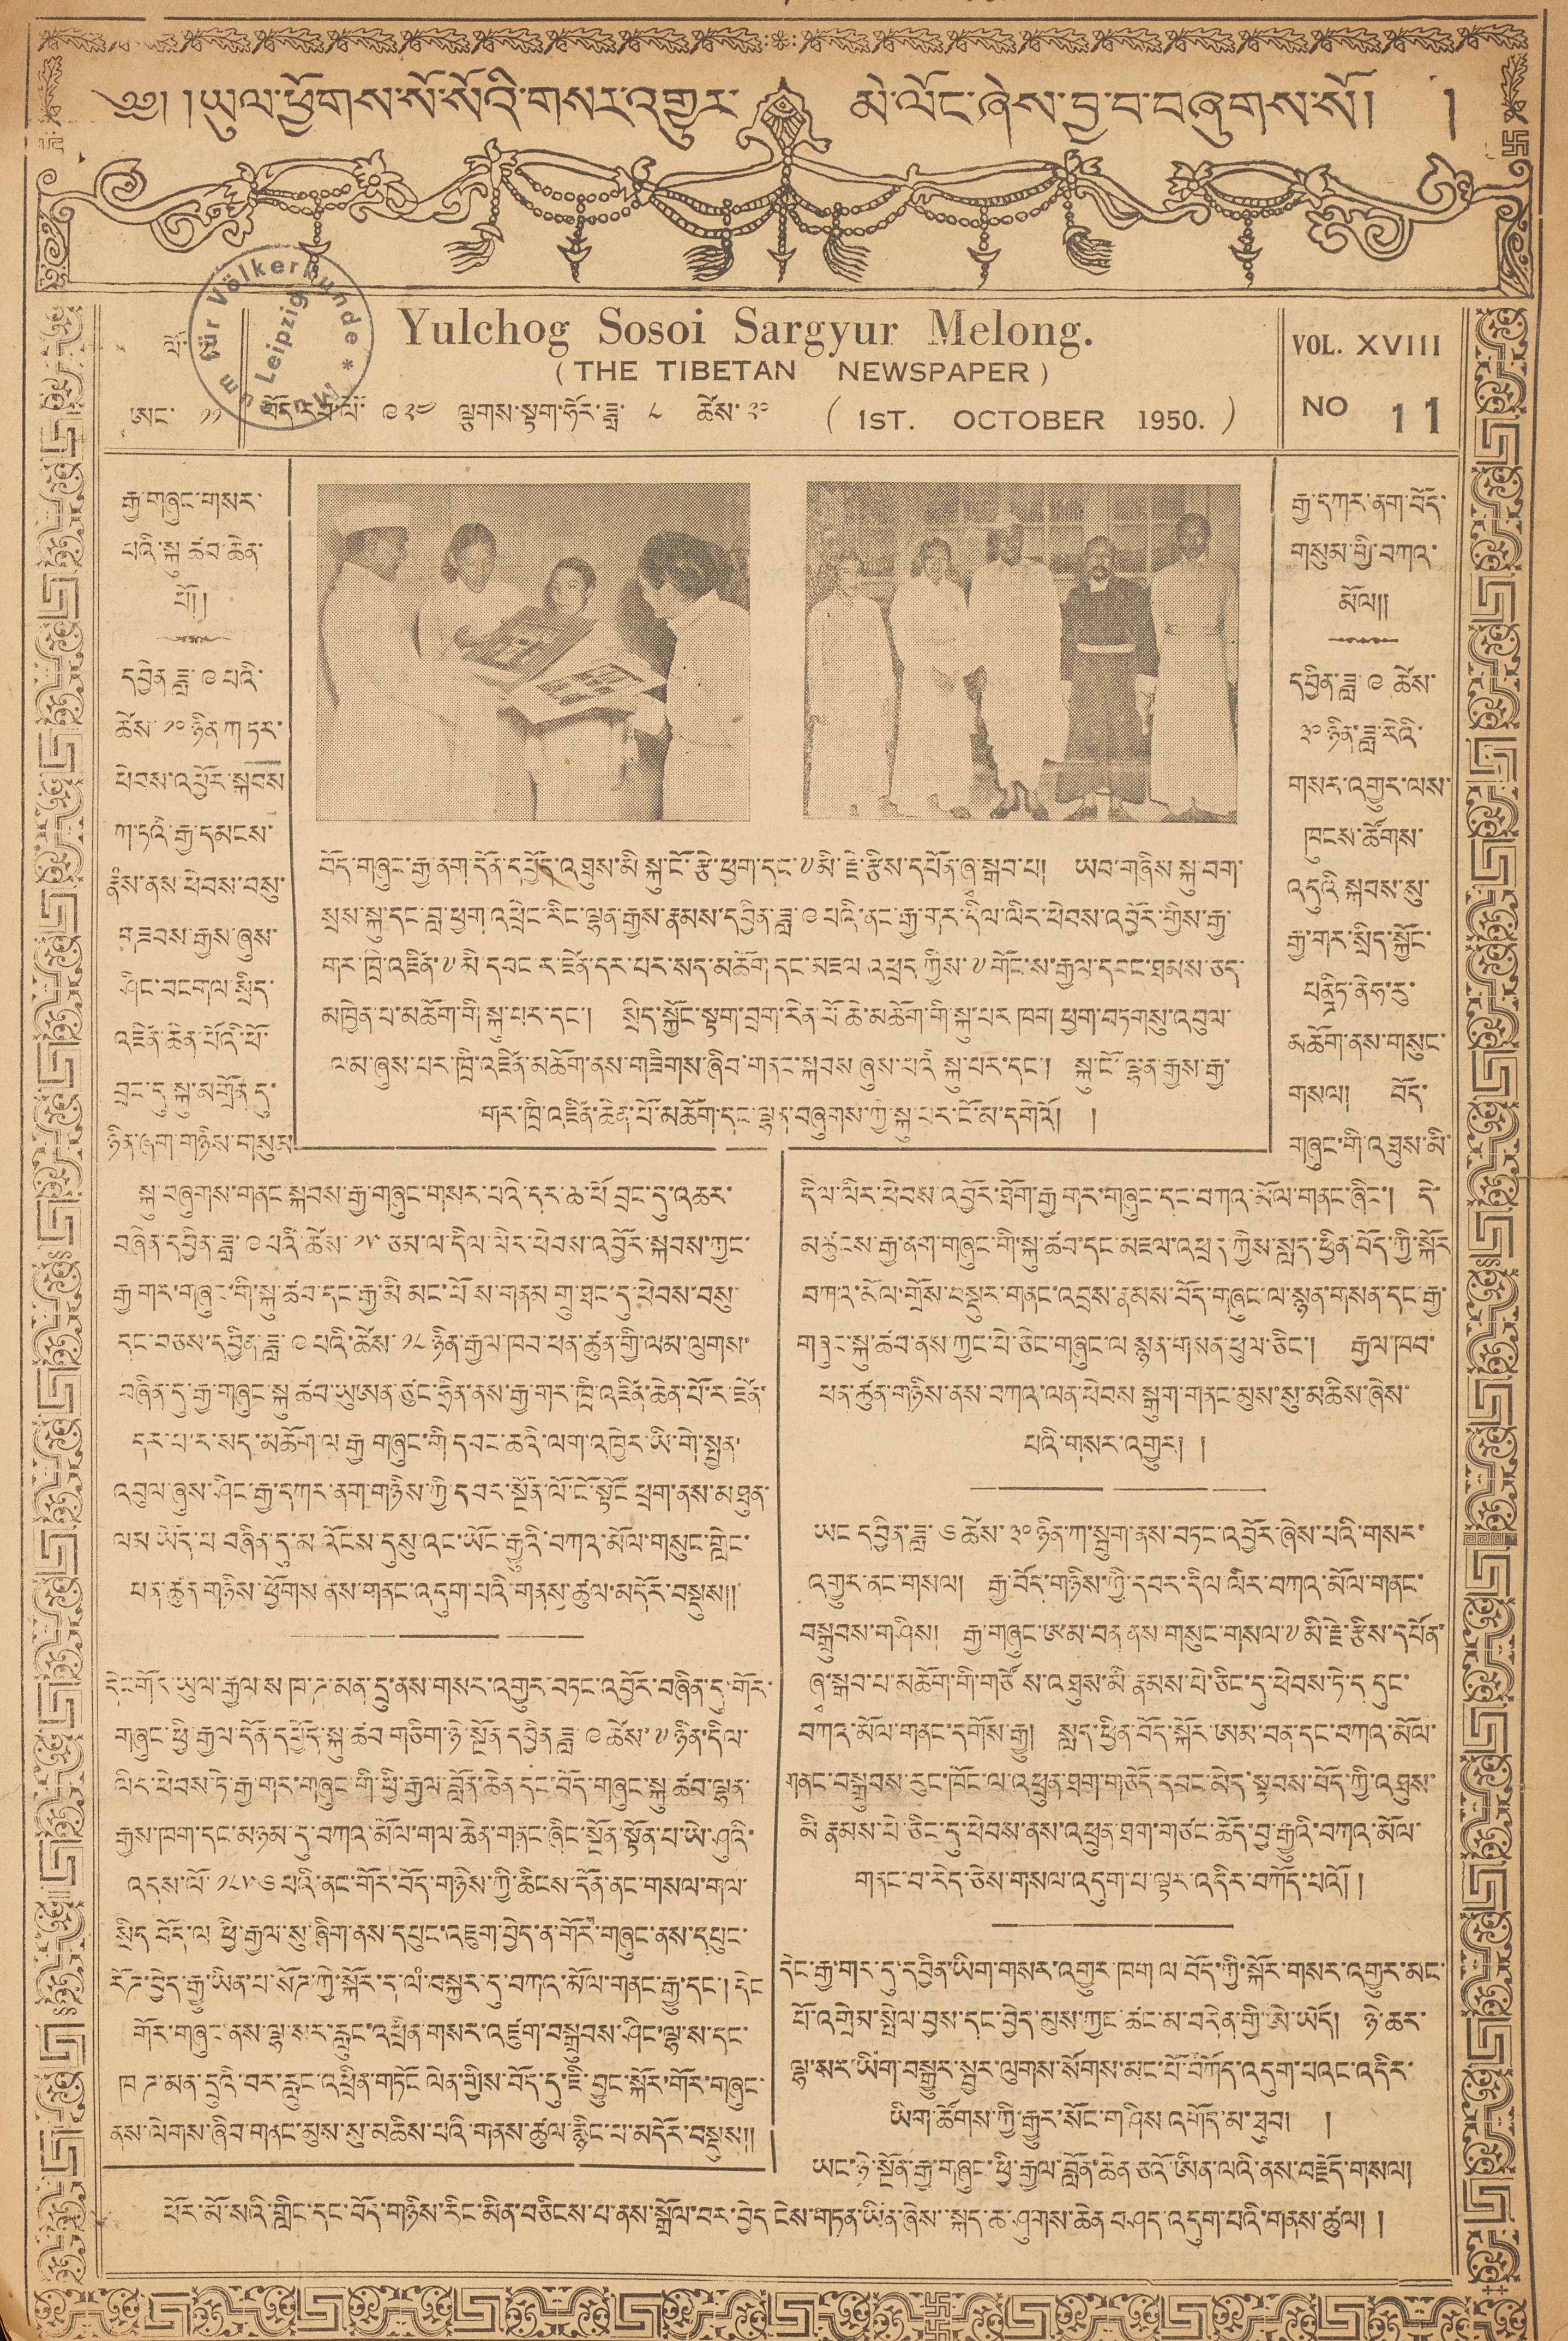༄༅། །ཡུལ་ཕྱོགས་སོ་སོའི་གསར་འགྱུར་ མེ་ལོང་ཞེས་བྱ་བ་བཞུགས་སོ། །
ལོ་ ༡༨
ཨང་ ༡༡
Yulchog Sosoi Sargyur Melong.
( THE TIBETAN NEWSPAPER )
བོད་རབ་ལོ་ ༩༢༤ ལྕགས་སྟག་ཧོར་ཟླ་ ༨ ཚེས་ ༢༠ ( 1st. OCTOBER 1950.)
VOL. XVIII
NO 11
བོད་གཞུང་རྒྱ་ནག་དོན་དཔྱོད་འཐུས་མི སྐུ་ངོ་རྩེ་ཕྱག་དང་༸མི་རྗེས་རྩིས་དཔོན་ཞྭ་སྒབ་པ། ཡབ་གཞིས་སྐུ་བག་
སྲས་སྐུ་དང་བླ་ཕྱག་འཕྲེང་རིང་ལྷན་རྒྱས་རྣམས་དབྱིན་ཟླ་ ༩ པའི་ནང་རྒྱ་གར་དིལ་ལིར་ཕེབས་འབྱོར་གྱིས་རྒྱ་
གར་ཁྲི་འཛིན་༸མི་དབང་ར་ཛེན་དར་པར་སད་མཆོག་དང་མཇལ་འཕྲད་ཀྱིས་༸གོང་ས་རྒྱལ་དབང་ཐམས་ཅད་
མཁྱེན་པ་མཆོག་གི་སྐུ་པར་དང་། སྲིད་སྐྱོང་སྟག་བྲག་རིན་པོ ཆེ་མཆོག་གི་སྐུ་པར་ཁག ཕྱག་བཏགསུ་འབུལ་
ལམ་ཞུས་པར་ཁྲི་འཛིན་མཆོག་ནས་གཟིགས་ཞིབ་གནང་སྐབས་ཞུས་པའི སྐུ་པར་དང་། སྐུ་ངོ་ལྷན་རྒྱས་རྒྱ་
གར་ཁྲི་འཛིན་ཆེན་པོ་མཆོག་དང་ལྷན་བཞུགས་ཀྱི་སྐུ་པར་ངོ་མ་དགེའོ། །
རྒྱ་གཞུང་གསར་
པའི་སྐུ ཚབ་ཆེན་
པོ། །
དབྱེན ཟླ་ ༩ པའི་
ཚེས་ ༡༠ ཉིན་ཀ ཏར་
ཕེབས་འབྱོར་སྐབས་
ཀ་ཏའི་རྒྱ་དམངས་
རྣཾས་ནས་ཕེབས་བསུ་
གཟབས་རྒྱས་ཞུས་
ཤིང་བངགལ་སྲིད་
འཛིན་ཆེན་པོའི་ཕོ་
བྲང་དུ་སྐུ་མགྲོན དུ་
ཉིན་ཞག་གཉིས་གསུམ
སྐུ་བཞུགས་གནང་སྐབས་རྒྱ་གཞུང་གསར་པའི་དར་ཆ་ཕོ བྲང་དུ་འཆར་
བཞིན་དབྱིན་ཟླ་ ༩ པའི་ཚེས་ ༡༥ ཙམ་ལ་དིལ་ལེར་ཕེབས་འབྱོར་སྐབས་ཀྱང་
རྒྱ་གར་གཞུང་གི་སྐུ་ཚབ་དང་རྒྱ་མི མང་པོས་གནམ གྲུ་ཐང་དུ་ཕེབས་བསུ་
དང་བཅས་དབྱིན་ཟླ་ ༩ ཚེས་ ༡༨ ཉིན་རྒྱལ་ཁབ་ཕན་ཚུན་གྱི་ལམ་ལུགས་
བཞིན་དུ་རྒྱ་གཞུང་སྐུ ཚབ་ཡུཨན་ཙུང་ཧྲིན་ནས་རྒྱ་གར་ཁྲི་འཛིན་ཆེན་པོ་ར་ཛེན་
དར་པ་ར་སད་མཆོག་ལ་རྒྱ གཞུང་གི་དབང་ཆའི་ལག་འཁྱེར་ཡི་གེ་སྤྱན་
འབུལ་ཞུས་ཤིང་རྒྱ་དཀར་ནག་གཉིས་ཀྱི་དབར་སྔོན་ལོ་ངོ་སྟོང་ཕྲག་ནས་མཐུན་
ལམ ཡོད་པ བཞིན་དུ་མ་འོངས་དུསུ་འང་ཡོང་རྒྱུའི་བཀའ་མོལ་གསུང་གླེང་
ཕན་ཚུན་གཉིས་ཕྱོགས ནས་གནང་འདུག་པའི་གནས་ཚུལ་མདོར་བསྡུས།།
དེང་གོར་ཡུལ་རྒྱལ་ས ཁ་ཌ་མན་དྲུ་ནས་གསར་འགྱུར་བཏང་འབྱོར་བཞིན་དུ་གོར་
གཞུང་ཕྱི རྒྱལ་དོན་དབྱོད་སྐུ་ཚབ་གཅིག་ཉེ་སྔོན་དབྱིན་ཟླ་ ༩ ཚེས་ ༧ ཉིན་དིལ་
ལིར་ཕེབས་ཏེ་རྒྱ་གར་གཞུང་གི་ཕྱི་རྒྱལ་བློན་ཆེན དང་བོད་གཞུང་སྐུ ཚབ་ལྷན་
རྒྱས་ཁག་དང་མཉམ་དུ་བཀའ་མོལ་གལ་ཆེན་གནང་ཞིང་སྔོན་སྟོན་པ་ཡེ་ཤུའི་
འདས་ལོ་ ༡༨༥༦ པའི་ནང་གོར་བོད་གཉིས་ཀྱི་ཆིངས་དོན་ནང་གསལ་གལ་
སྲིད་བོད་ལ ཕྱི་རྒྱལ་སུ་ཞིག་ནས་དཔུང་འཇུག་བྱེད་ན་གོར་གཞུང་ནས་དཔུང་
རོཊ་བྱེད་རྒྱུ་ཡིན་པ་སོཊ་ཀྱི་སྐོར་ད་ལཾ་བསྐྱར་དུ་བཀའ་མོལ་གནང་རྒྱུ་དང་། དེང་
གོར་གཞུང་ནས་ལྷ་སར་རླུང་འཕྲིན་གསར་འཛུག་བསྒྲུབས་ཤིང་ལྷ་ས་དང་
ཁཌ་མན་དྲུའི་བར་རླུང་འཕྲིན་གཏོང ལེན་གྱིས་བོད་དུ་ཇི་བྱུང་སྐོར་གོར་གཞུང་
ནས་ལེགས་ཞིབ་གནང་མུས་སུ་འཆིས་པའི་གནས་ཚུལ་རྙིང་པ་མདོར་བསྡུས།།
རྒྱ་དཀར་ནག་བོད་
གསུམ་གྱི་བཀའ་
མོལ།།
དབྱིན་ཟླ་ ༩ ཚེས་
༣༠ ཉིན་ཟླ་རེའི་
གསར་འགྱུར་ལས་
ཁུངས་ཚོགས་
འདུའི སྐབས་སུ་
རྒྱ་གར་སྲིད་སྐྱོང་
པནྜིཏ་ནེཧ་རུ་
མཆོག་ནས་གསུང་
གསལ། བོད་
གཞུང་གི་འཐུས་མི་
དིལ་ལིར་ཕེབས་འབྱོར་ཐོག་རྒྱ་གར་གཞུང་དང་བཀའ་མོལ་གནང་ཞིང་། དེ་
མཚུངས་རྒྱ་ནང་གཞུང་གི་སྐུ་ཚབ་དང་མཇལ་འཕྲད་ཀྱིས་སླད་ཕྱིན་བོད་ཀྱི་སྐོར་
བཀའ་མོལ་གྲོས་བསྡུར་གནང་འབྲས་རྣམས་བོད་གཞུང་ལ་སྙན་གསན་དང་རྒྱ་
གཞུང་སྐུ་ཚབ་ནས་ཀྱང་པེ་ཅིང་གཞུང་ལ་སྙན་གསར་ཕུལ་ཅིང་། རྒྱལ་ཁབ་
ཕན་ཚུལ་གཉིས་ནས་བཀའ་ལན་ཕེབས སྒུག་གནང་མུས་སུ་མཆིས་ཞེས་
པའི་གསར་འགྱུར། །
ཡང དབྱིན་ཟླ་ ༦ ཚེས་ ༣༠ ཉིན་ཀ་སྦུག་ནས་བཏང་འབྱོར་ཞེས་པའི་གསར་
འགྱུར་ནང་གསལ། རྒྱ་བོད་གཉིས་ཀྱི་དབར་དིལ་ལིར་བཀའ་མོལ་གནང་
བསྒུབས་ནང་གསལ། རྒྱ་བོད་གཉིས་ཀྱི་དབར་དིལ ལིར་བཀའ་མོལ་གནང་
ཞྭ་སྒབ་པ་མཆོག་གི་གཙོ ས་འཐུས་མི་རྣམས་པེ་ཅིང་དུ་ཕེབས་ཏེ་ད དུང་
བཀའ་མོལ་གནང་དགོས་རྒྱུ། སླད་ཕྱིན་བོད་སྐོར་ཨམ་བན་དང་བཀའ་མོལ་
གནང་བསྒྲུབས་རུང་ཁོང་ལ་འཕྲུན་ཐག་གཅོད་དབང་མེད་སྟབས་བོད་ཀྱི་འཐུས་
མི་རྣམས་པེ་ཅིང་དུ་ཕེབས་ནས་འཕྲུལ་ཐག་གཙང་ཆོད་བྱ་རྒྱུའི་བཀའ་མོལ་
གནང་བ་རེད་ཅེས་གསལ་འདུག་པ་ལྟར་འདིར་བཀོད་པའོ། །
དེང་རྒྱ་གར་དུ་དབྱིན་ཡིག་གསར་འགྱུར་ཁག ལ་བོད་ཀྱི་སྐོར་གསར་འགྱུར་མང་
པོ་འགྲེམ་སྤེལ་བྱས་དང་བྱེད་མུས་ཀྱང་ཚང་མ་བདེན་གྱི་ཨེ་ཡོད། ཉེ་ཆར་
ལྷ་སར་ཡིག་བསྒྱུར་སྦྱར་ལུགས་སོགས་མང་པོ་བཀོད་འདུག་པའང་འདིར་
ཡིག་ཚོགས་ཀྱི་རྒྱུར་སོང་གཤིས་འགོད་མ་ཐུབ། །
ཡང་ཉེ་སྔོན་རྒྱ་གཞུང་ཕྱི་རྒྱལ་བློན་ཆེན་ཅའོ་ཨིན་ལའི་ནས་བརྗོད་གསལ།
ཕོར་མོ་སའི་གླིང་དང་བོད་གཉིས་རིང་མིན་བཅིངས་པ་ནས་སྒྲོལ་བར་བྱེད་ངེས་གཏན་ཡིན་ཞེས་་སྐད་ཆ་ཤུགས་ཆེན བཤད་འདུག་པའི་གནས་ཚུལ། །
